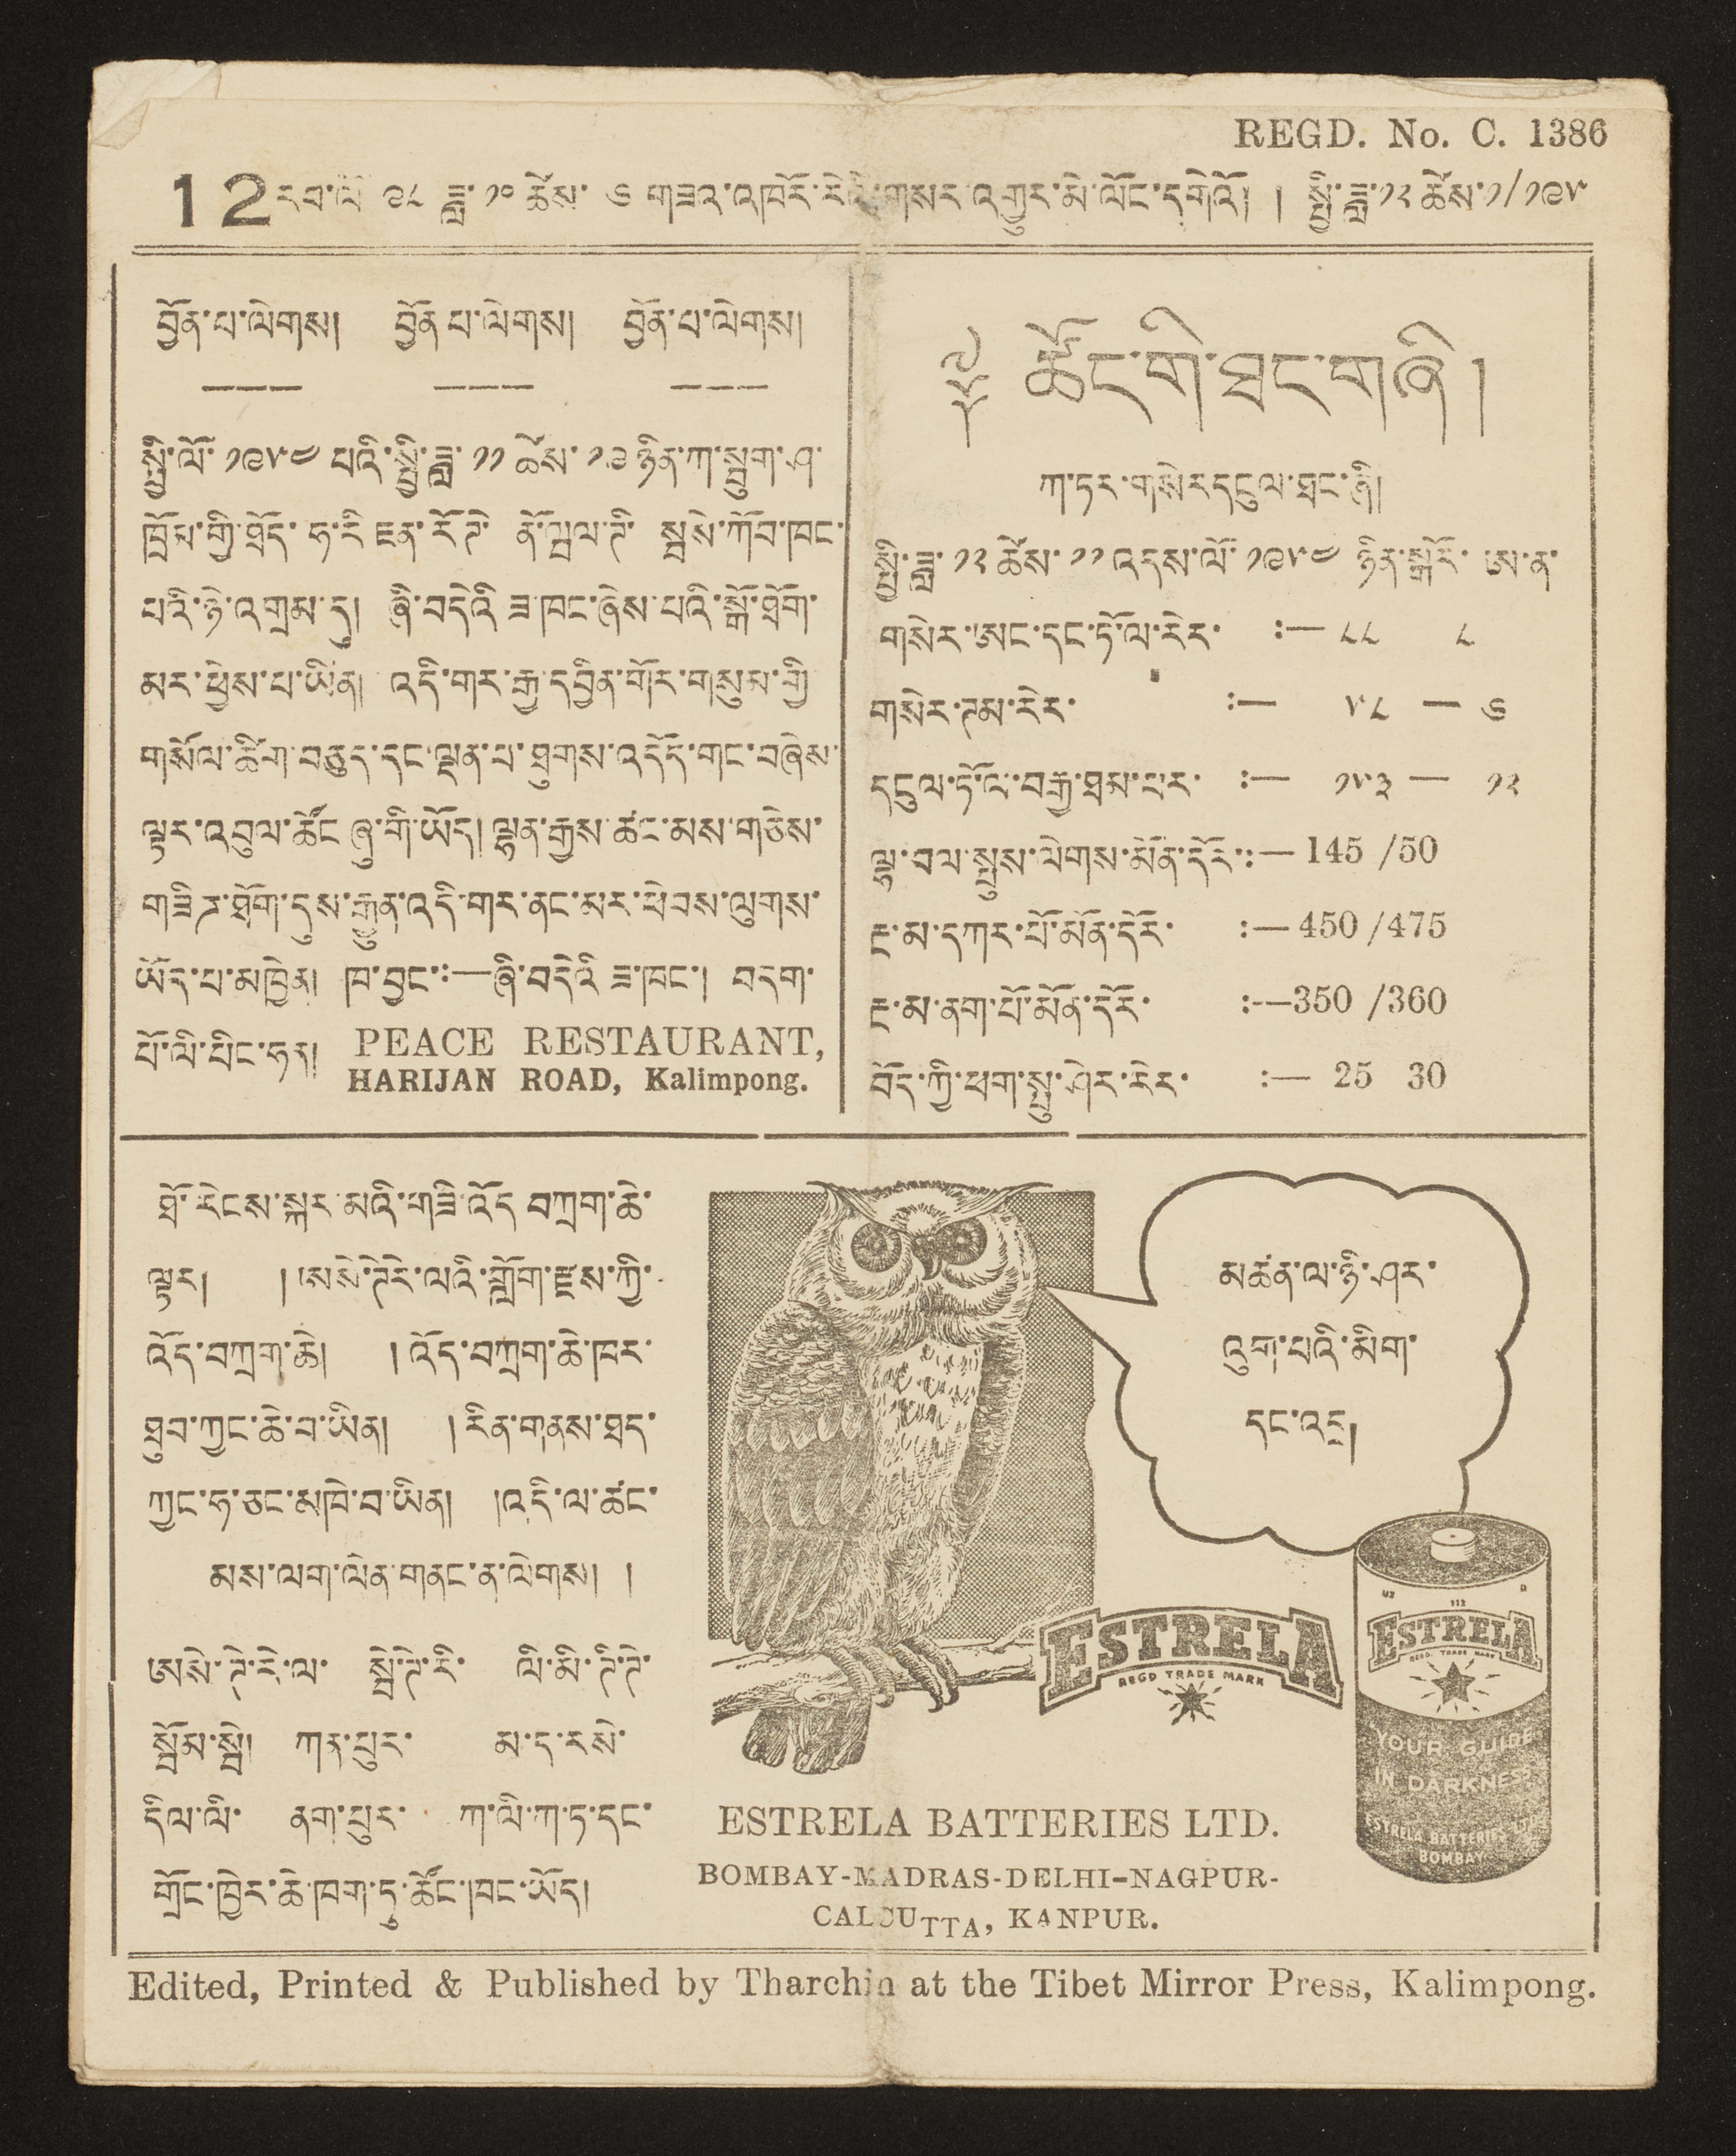REGD. NO. C. 1386
12རབ་ལོ་ ༩༨ ཟླ་ ༡༠ ཚེས་ ༦ གཟའ་འཁོར་རེའི་གསར་འགྱུར་མེ་ལོང་དགེའོ། ། སྤྱི་ཟླ་༡༢ཚེས་༡/༡༩༥
བྱོན་པ་ལེགས། བྱོན་པ་ལེགས། བྱོན་པ་ལེགས།
སྤྱི་ལོ་ ༡༩༥༤ སྤྱི་ཟླ་༡༡ཚེས་༡༩ཉིན་ཀ་སྤུག་ཤ་
ཁྲོམ་གྱི་ཐོད་ཧ་རི་ ཇན་རོཊེ་ནོ་ཝལ་ཊི་སྦེས་ཀོབ་ཁང་
པའི་ཉེ་འགྲམ་དུ། ཞི་བདེའི ཟ་བདེའི ཟ་ཁང་ཞེས་པའི་སྒོ་ཐོག་
མར་ཕྱེས་པ་ཡིན། འདི་གར་རྒྱ་དབྱིན་གོར་གསུམ་གྱི
གསོལ་ཚིག་བཅུད་དང་ལྡན་པ་ཐུགས་འདོད་གང་བཞེས་
ལྟར་འབུལ་ཚོང་ཞུ་གི་ཡོད། ལྷན་རྒྱས་ཚང་མས་གཅེས་
གཟིཌ་ཐོག་དུས་རྒྱུན་འདི་གར་ནང་མར་ཕེབས་ལུགས་
ཡོད་པ་མཁྱེན། ཁ་བྱང་:—ཞི་བདེའི ཟ་ཁང་། བདག་
པོ་ལི་པིང་ཧན། PEACE RESTAURANT.
HARIJAN ROAD, Kalimpong.
ཐོ་རེངས་སྐར་མའི་གཟི་འོད བཀྲག་ཆེ་
ལྟར། །ཨསེ་ཊེརེ་ལའི་གློག་རྫས་ཀྱི་
འོད་བཀྲག་ཆེ། །འོད་བཀྲག་ཆེ་ཁར་
ཐུབ་ཀྱང་ཆེ་བ་ཡིན། །རིན་གནས་ཐད་
ཀྱང་ཧ་ཅང་མཁེ་བ་ཡིན། །འདི་ལ་ཚང་
མས་ལག་ལེན་གནང་ན་ལེགས། །
ཨསེ་ཊེ་རེ་ལ་ སྦེ་ཊེ་རི་ ལི་མི་ཊི་ཊི་
སྦོམ་སྦེ། ཀན་པུར་ མ་ད་རསེ་
དིལ་ལི ནག་པུར་ ཀ་ལི་ཀ་ཏ་དང་
གྲོང་ཁྱེར་ཆེ་ཁག་ཏུ་ཚོང་ཁང་ཡོད།
༈ ཚོང་གི་ཐང་གཞི།
ཀ་ཏར་གསེར་དངུལ་ཞི།
སྤྱི་ཟླ་ ༡༢ ཚེས་ ༡༡ འདས་ལོ་ ༡༩༥༤ ཉིན་སྒོར་ཨ་ན་
གསེར་ཨང་དང་ཏོ་ལ་རེར་ :—༥༥ ༨
གསེར་ཊམ་རེར་ :— ༥༨ - ༦
དངུལ་ཏོ་ལ་བརྒྱ་ཐམ་པར་ :— ༡༥༣ - ༡༢
ལྷ་བལ་སྤུས་ལེགས་མོན་དོར་:—143 /50
རྔ་མ་དཀར་པོ་མོན་དོར་ :—450 /475
རྔ་མ་ནག་པོ་མོན་དོར་ :—350 /360
བོད་ཀྱི་ཕག་སྤུ་ཤེར་རེར་ :—25 30
མཚན་ལ་ཉི་ཤར་
འུག་པའི་མིག་
དང་འདྲ།
YOUR GUIDE
IN DARKNESS
ESTRELA BATTERIES LTD.
BOMBAY
ESTRELA BATTERIES LTD.
BOMBAY-MADRAS-DELHI-NAGPUR-
CALCUTTA. KANPUR.
ESTRELA
REGD TRADE MARK
Edited, Printed & published by Tharchin at the Tibet Mirrow Press, Kalimpong.
